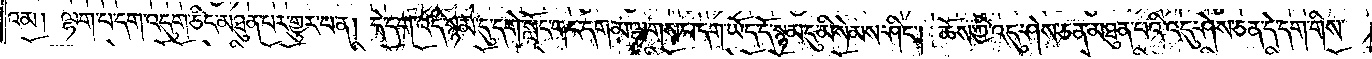འམ། ལྷག་པ་དག་འདུག་ཅིང་མཐུན་པར་གྱུར་པ་ན། དེ་དག་འདི་སྙམ་དུ་དགེ་སློང་གང་དག་མ་ལྷགས་པ་དག་ཡོད་དོ་སྙམ་དུ་མི་སེམས་ཤིང༌། ཆོས་ཀྱི་འདུ་ཤེས་ཅན་མཐུན་པའི་འདུ་ཤེས་ཅན་དེ་དག་གིས་
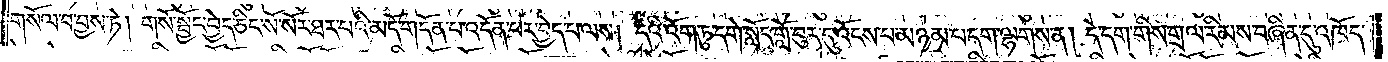གསོལ་བ་བྱས་ཏེ། གསོ་སྦྱོང་བྱེད་ཅིང་སོ་སོར་ཐར་པའི་མདོ་གདོན་པ་འདོན་པར་བྱེད་པ་ལས། དེའི་འོག་ཏུ་དགེ་སློང་གློ་བུར་དུ་འོངས་པ་མཉམ་པ་དག་ལྷགས་ན། དེ་དག་གིས་གྲལ་རིམས་བཞིན་དུ་འཁོད་
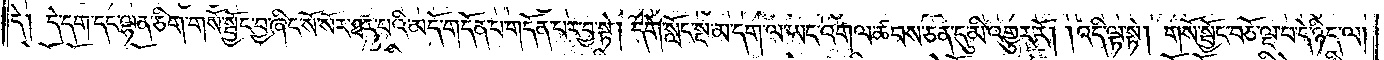དེ། དེ་དག་དང་ལྷན་ཅིག་གསོ་སྦྱོང་བྱ་ཞིང་སོ་སོར་ཐར་པའི་མདོ་གདོན་པ་གདོན་པར་བྱ་སྟེ། དགེ་སློང་སྔ་མ་དག་ལ་ཡང་འགལ་ཚབས་ཅན་དུ་མི་འགྱུར་རོ། །འདི་ལྟ་སྟེ། གསོ་སྦྱོང་བཅོ་ལྔ་པ་དེ་ཉིད་ལ།
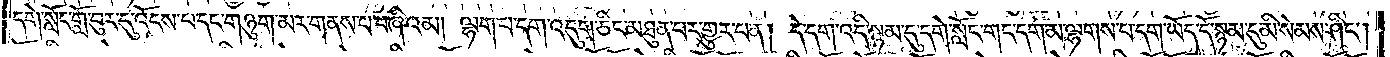དགེ་སློང་གློ་བུར་དུ་འོངས་པ་དང་གཉུག་མར་གནས་པ་བཞིའམ། ལྷག་པ་དག་འདུག་ཅིང་མཐུན་པར་གྱུར་པ་ན། དེ་དག་འདི་སྙམ་དུ་དགེ་སློང་གང་དག་མ་ལྷགས་པ་དག་ཡོད་དོ་སྙམ་དུ་མི་སེམས་ཤིང༌།
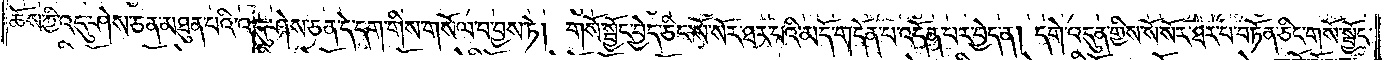ཆོས་ཀྱི་འདུ་ཤེས་ཅན་མཐུན་པའི་འདུ་ཤེས་ཅན་དེ་དག་གིས་གསོལ་བ་བྱས་ཏེ། གསོ་སྦྱོང་བྱེད་ཅིང་སོ་སོར་ཐར་པའི་མདོ་གདོན་པ་འདོན་པར་བྱེད་ན། དགེ་འདུན་གྱིས་སོ་སོར་ཐར་པ་བཏོན་ཅིང་གསོ་སྦྱོང་
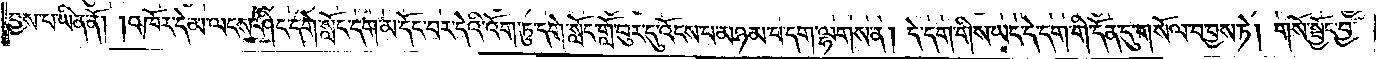བྱས་པ་ཡིན་ནོ། །འཁོར་དེ་མ་ལངས་ཤིང་དགེ་སློང་དག་མ་དོང་བར་དེའི་འོག་ཏུ་དགེ་སློང་གློ་བུར་དུ་འོངས་པ་མཉམ་པ་དག་ལྷགས་ན། དེ་དག་གིས་ཡང་དེ་དག་གི་དོན་དུ་གསོལ་བ་བྱས་ཏེ། གསོ་སྦྱོང་བྱ་
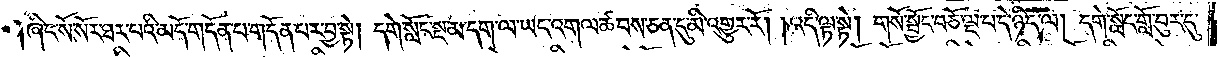ཞིང་སོ་སོར་ཐར་པའི་མདོ་གདོན་པ་གདོན་པར་བྱ་སྟེ། དགེ་སློང་སྔ་མ་དག་ལ་ཡང་འགལ་ཚབས་ཅན་དུ་མི་འགྱུར་རོ། །འདི་ལྟ་སྟེ། གསོ་སྦྱོང་བཅོ་ལྔ་པ་དེ་ཉིད་ལ། དགེ་སློང་གློ་བུར་དུ་
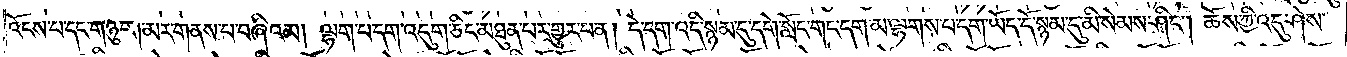འོངས་པ་དང་གཉུག་མར་གནས་པ་བཞིའམ། ལྷག་པ་དག་འདུག་ཅིང་མཐུན་པར་གྱུར་པ་ན། དེ་དག་འདི་སྙམ་དུ་དགེ་སློང་གང་དག་མ་ལྷགས་པ་དག་ཡོད་དོ་སྙམ་དུ་མི་སེམས་ཤིང༌། ཆོས་ཀྱི་འདུ་ཤེས་
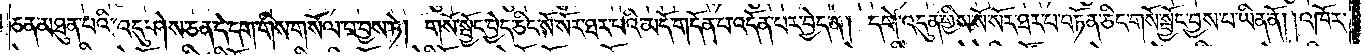ཅན་མཐུན་པའི་འདུ་ཤེས་ཅན་དེ་དག་གིས་གསོལ་བ་བྱས་ཏེ། གསོ་སྦྱོང་བྱེད་ཅིང་སོ་སོར་ཐར་པའི་མདོ་གདོན་པ་འདོན་པར་བྱེད་ན། དགེ་འདུན་གྱིས་སོ་སོར་ཐར་པ་བཏོན་ཅིང་གསོ་སྦྱོང་བྱས་པ་ཡིན་ནོ། །འཁོར་
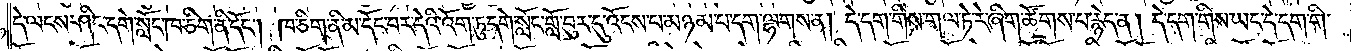དེ་ལངས་ཤིང་དགེ་སློང་ཁ་ཅིག་ནི་དོང༌། ཁ་ཅིག་ནི་མ་དོང་བར་དེའི་འོག་ཏུ་དགེ་སློང་གློ་བུར་དུ་འོངས་པ་མཉམ་པ་དག་ལྷགས་ན། དེ་དག་གིས་གལ་ཏེ་རེ་ཞིག་ཚོགས་པ་རྙེད་ན། དེ་དག་གིས་ཡང་དེ་དག་གི་
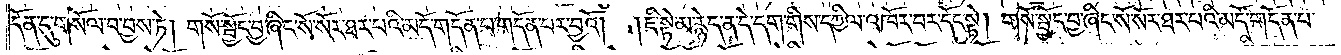དོན་དུ་གསོལ་བ་བྱས་ཏེ། གསོ་སྦྱོང་བྱ་ཞིང་སོ་སོར་ཐར་པའི་མདོ་གདོན་པ་གདོན་པར་བྱའོ། །ཇི་སྟེ་མ་རྙེད་ན་དེ་དག་གིས་དཀྱིལ་འཁོར་བར་དོང་སྟེ། གསོ་སྦྱོང་བྱ་ཞིང་སོ་སོར་ཐར་པའི་མདོ་གདོན་པ་
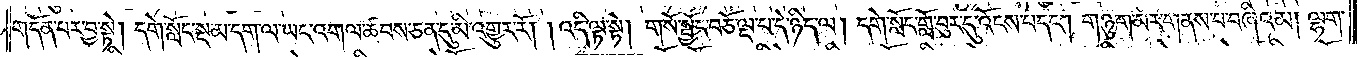གདོན་པར་བྱ་སྟེ། དགེ་སློང་སྔ་མ་དག་ལ་ཡང་འགལ་ཚབས་ཅན་དུ་མི་འགྱུར་རོ། །འདི་ལྟ་སྟེ། གསོ་སྦྱོང་བཅོ་ལྔ་པ་དེ་ཉིད་ལ། དགེ་སློང་གློ་བུར་དུ་འོངས་པ་དང༌། གཉུག་མར་གནས་པ་བཞིའམ། ལྷག་
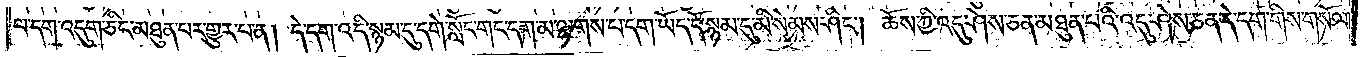པ་དག་འདུག་ཅིང་མཐུན་པར་གྱུར་པ་ན། དེ་དག་འདི་སྙམ་དུ་དགེ་སློང་གང་དག་མ་ལྷགས་པ་དག་ཡོད་དོ་སྙམ་དུ་མི་སེམས་ཤིང༌། ཆོས་ཀྱི་འདུ་ཤེས་ཅན་མཐུན་པའི་འདུ་ཤེས་ཅན་དེ་དག་གིས་གསོལ་
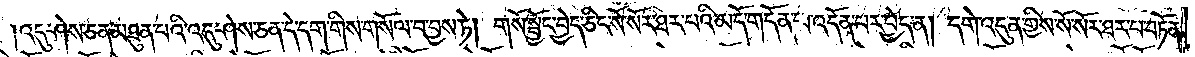འདུ་ཤེས་ཅན་མཐུན་པའི་འདུ་ཤེས་ཅན་དེ་དག་གིས་གསོལ་བ་བྱས་ཏེ། གསོ་སྦྱོང་བྱེད་ཅིང་སོ་སོར་ཐར་པའི་མདོ་གདོན་པ་འདོན་པར་བྱེད་ན། དགེ་འདུན་གྱིས་སོ་སོར་ཐར་པ་བཏོན་
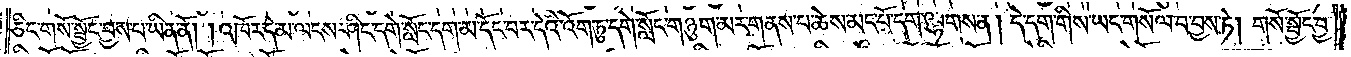ཅིང་གསོ་སྦྱོང་བྱས་པ་ཡིན་ནོ། །འཁོར་དེ་མ་ལངས་ཤིང་དགེ་སློང་དག་མ་དོང་བར་དེའི་འོག་ཏུ་དགེ་སློང་གཉུག་མར་གནས་པ་ཆེས་མང་པོ་དག་ལྷགས་ན། དེ་དག་གིས་ཡང་གསོལ་བ་བྱས་ཏེ། གསོ་སྦྱོང་བྱ་
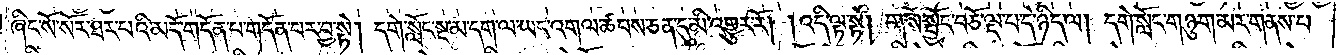ཞིང་སོ་སོར་ཐར་པའི་མདོ་གདོན་པ་གདོན་པར་བྱ་སྟེ། དགེ་སློང་སྔ་མ་དག་ལ་ཡང་འགལ་ཚབས་ཅན་དུ་མི་འགྱུར་རོ། །འདི་ལྟ་སྟེ། གསོ་སྦྱོང་བཅོ་ལྔ་པ་དེ་ཉིད་ལ། དགེ་སློང་གཉུག་མར་གནས་པ་
